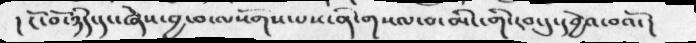། ངོ་བོ་ཉིད་དང་ཞེས་བྱ་བ་ལསོགས་པས་ནི་གསལ་བ་མིང་གི་རབ་དུ་དབྱེའ་བའོ་།
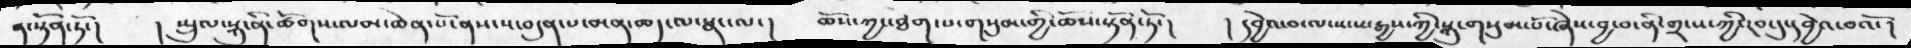ན་སྟོན་ཏོ་།  ། སྤྲུལ་སྐུ་ནི་ཚོགས་ལམ་ཆེན་པོ་ནས་ས་བདུན་པ་མན་ཆད་ལ་སྣང་ལ་།  ཆོས་ཀྱང་ཐེག་པ་གསུམ་གྱི་ཆོས་སྟོན་ཏོ་།  ། དབྱེའ་བ་ལ་སངས་རྒྱས་ཀྱི་སྐུ་གསུམ་པོ་ཞེས་བྱ་བ་ནི་གྲངས་ཀྱི་རབ་དུ་དབྱེའ་བའོ་།
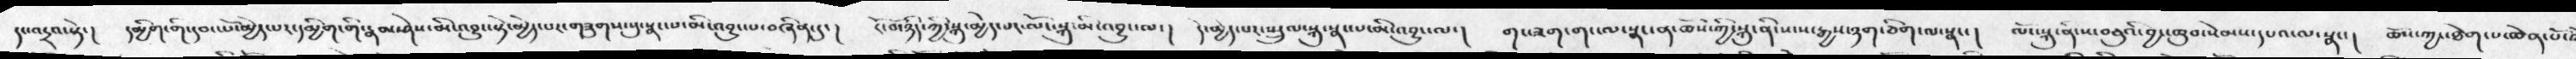དང་འདྲའ་སྟེ་།  དམྱིག་གི་དབང་པོ་མྱེད་པར་དམྱིག་གི་རྣམ་ཤེས་མི་འབྱུང་སྟེ་མྱེད་པར་གཟུགས་སུ་སྣང་པ་མི་འབྱུང་པ་བཞིན་དུ་།  ངོ་བོ་ཉིད་ཀྱི་སྐུ་མྱེད་པར་ལོང་སྐུ་མི་འབྱུང་ལ་།  དེ་མྱེད་པར་སྤྲུལ་སྐུ་སྣང་པ་མི་འབྱུང་ལ་།  གང་ཟག་གང་ལ་སྣང་ན་ཆོས་ཀྱི་སྐུ་ནི་སངས་རྒྱས་ཉག་ཅིག་ལ་སྣང་།  ལོང་སྐུ་ནི་ས་བཅུའི་བྱང་ཆུབ་སེམས་དཔའ་ལ་སྣང་།  ཆོས་ཀྱང་ཐེག་པ་ཆེན་པོ་
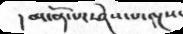།  མངོན་་པར་ཤེས་པ་ལྔས་
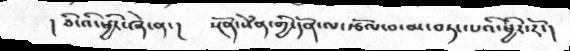། ཅི་འི་ཕྱིར་ཞེ་ན་།  སྔོན་སེཾན་གྱི་དོན་ལ་རྩོལ་བ་མ་བཏང་པའི་ཕྱིར་རོ་།
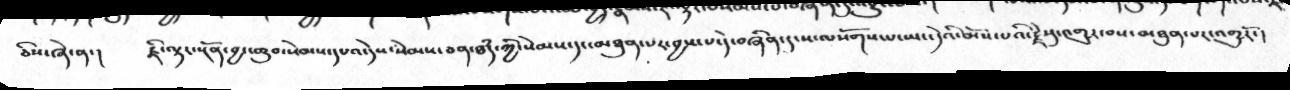ཅིས་ཞེ་ན་།   ཇི་ལྟར་སྔོན་བྱང་ཆུབ་སེམས་དཔའ་དེས་སེམས་ཅན་ཐཾད་ཀྱི་སེམས་དང་མཐུན་པར་བྱས་པ་དེ་བཞིན་དུ་ས་ལསོགས་པ་ཡང་དེའི་མོས་པའི་རྗེསུ་འགྱུར་བས་མཐུན་པར་འགྱུརོ་།
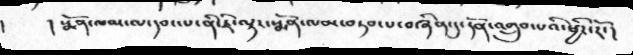།    ། སྨོན་ལམ་ལ་དབང་པ་ནི་ཇི་ལྟར་སྨོན་ལམ་བཏབ་པ་བཞིན་དུ་དོན་འགྲུབ་པའི་ཕྱིར་རོ་།
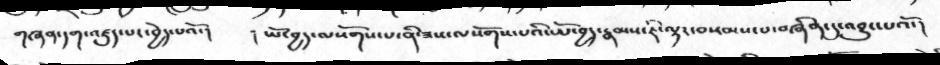གཞན་དག་འཛུད་པར་བྱེད་པའོ་།   ། ཡོ་བྱད་ལསོགས་པ་ནི་ཟས་ལསོགས་པའི་ཡོ་བྱད་རྣམས་ཇི་ལྟར་བསམས་པ་བཞིན་དུ་འབྱུང་པའོ་།
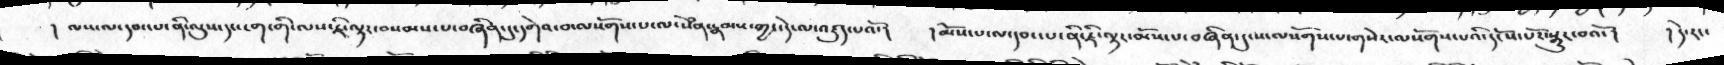། ལས་ལ་དབང་པ་ནི་ལུས་དང་ངག་གི་ལས་ཇི་ལྟར་བསམས་པ་བཞིན་དུ་དགེའ་བ་ལསོགས་པ་ལ་སེཾན་རྣམས་ཀྱང་དེ་ལ་འཛུད་པའོ་།    །མོས་པ་ལ་དབང་པ་ནི་ཇི་ལྟར་མོས་པ་བཞིན་དུ་ས་ལསོགས་པ་གསེར་ལསོགས་པའི་དངོས་པོར་སྒྱུར་བའོ་།    ། དེ་རང་
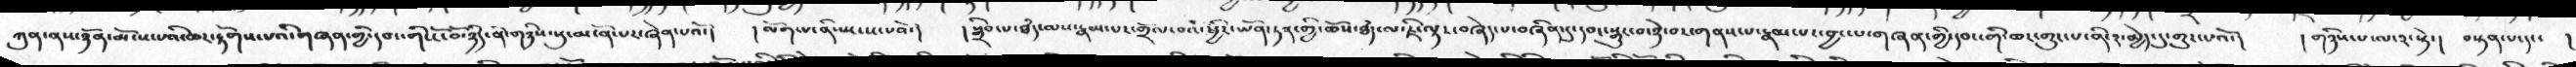ཀུན་ནས་ཉོན་མོངས་པའི་ཆར་རྟོགས་པའི་གཞན་གྱི་དབང་གི་ངོ་བོ་ཉིད་ནི་གཉིས་སུ་མངོན་པར་ཞེན་པའོ་།  ། ལོག་པ་ནི་སྤངས་པའོ་།  ། སྒྲིབ་པ་ཐཾད་ལས་རྣམ་པར་གྲོལ་བའི་ཕྱིར་ཡོན་ཏན་གྱི་ཆོས་ཐཾད་ལ་ཇི་ལྟར་བཞེད་པ་བཞིན་དུ་དབང་སྒྱུར་བ་ཉེ་བར་གནས་པ་རྣམ་པར་བྱང་པ་གཞན་གྱི་དབང་གི་ཆར་གྱུར་པ་ནི་༢་མྱེད་དུ་གྱུར་པའོ་།  ། གཉིས་པ་ལ་༢་སྟེ་།  བསྟན་པ་དང་ །
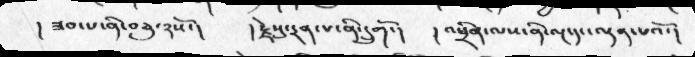།  ཟབ་པ་ནི་བཅུ་༢སོ་།  ། རྗེསུ་དྲན་པ་ནི་དྲུགོ་།  ། འཕྲིན་ལས་ནི་ལྔ་དང་ལྡན་པའོ་།
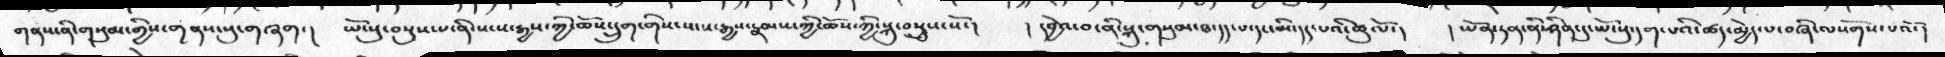གནས་ནི་གསུམ་གྱིས་གནས་སུ་གཞག་།  ཡོངསུ་བསྡུས་པ་ནི་སངས་རྒྱས་ཀྱི་ཆོས་དྲུག་གིས་སངས་རྒྱས་རྣམས་ཀྱི་ཆོས་ཀྱི་སྐུ་བསྡུས་སོ་།  ། དབྱེའ་བ་ནི་སྐུ་གསུམ་ཐ་དད་པ་དང་མི་དད་པའི་ཚུལོ་།  ། ཡོན་ཏན་ནི་ཤིན་དུ་ཡོངསུ་དག་པའི་ཚད་མྱེད་པ་བཞི་ལསོགས་པའོ་།
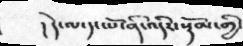།  དེ་ལ་དང་པོ་ནི་འདིར་སྡོམ་གྱི་
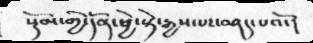སྡོམ་གྱི་དོན་ཕྱེ་སྟེ་རྒྱས་པར་བཤད་པའོ་།
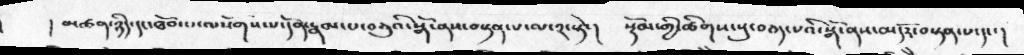།  མཚན་ཉིད་དང་ཐོབ་པ་ལསོགས་པ་དོན་རྣམ་པ་བཅུའི་སྒོ་ནས་བསྟན་པ་ལ་༢་སྟེ་།  སྡོམ་གྱི་ཚིགས་སུ་བཅད་པའི་སྒོ་ནས་མདོར་བསྟན་པ་དང་།
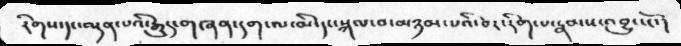རིགས་དང་ལྡན་པའི་རྒྱུད་གཞན་དག་ལ་མི་དང་སྐལ་བ་མཉམ་པའི་བར་རིག་པ་རྣམས་འབྱུང་ངོ་།
